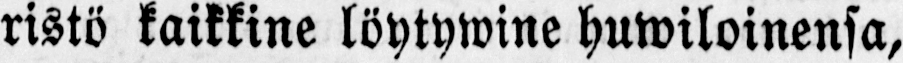ristö kaikkine löytywine huwiloinensa,
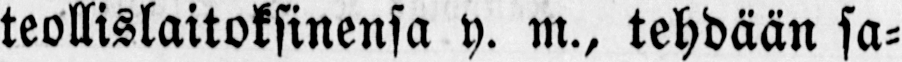teollislaitoksinensa y. m., tehdään sa-
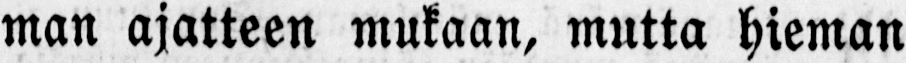man ajatteen mukaan, mutta hieman
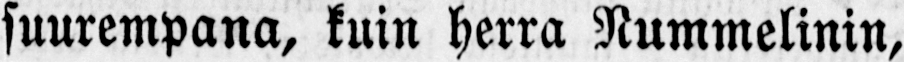suurempana, kuin herra Nummelinin,
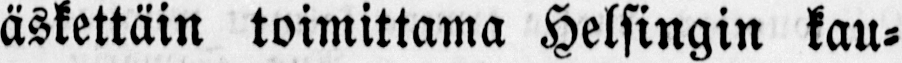äskettäin toimittama Helsingin kau-
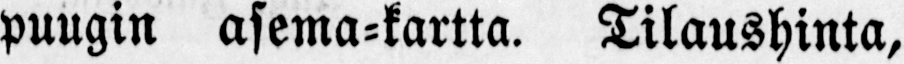pungin asema-kartta. Tilaushinta,
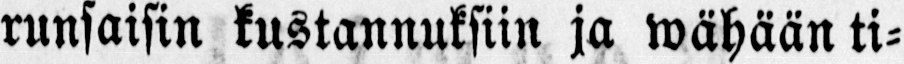runsaisin kustannuksiin ja wähään ti-
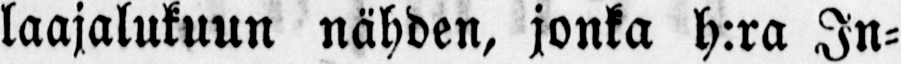laajalukuun nähden, jonka h:ra In-
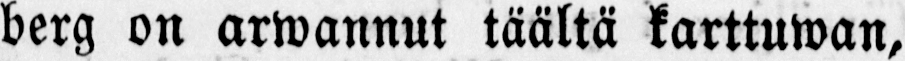berg on arwannut täältä karttuwan,
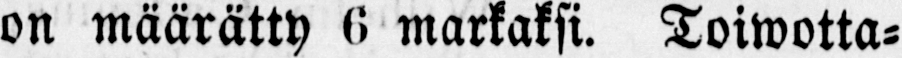on määrätty 6 markaksi. Toiwotta-
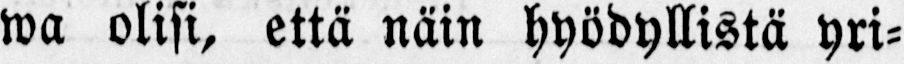wa olisi, että näin hyödyllistä yri-
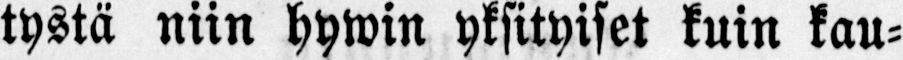tystä niin hywin yksityiset kuin kau-
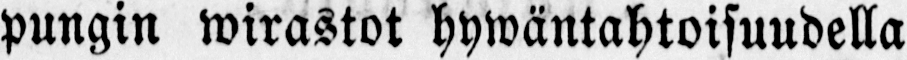pungin wirastot hywäntahtoisuudella
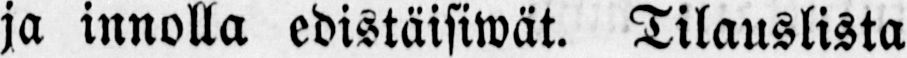ja innolla edistäisiwät. Tilauslista
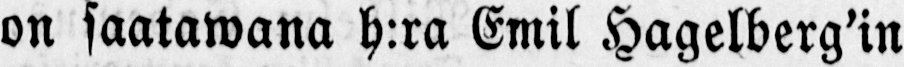on saatawana h:ra Emil Hagelberg’in
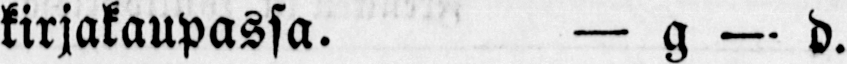kirjakaupassa. — g — d.
